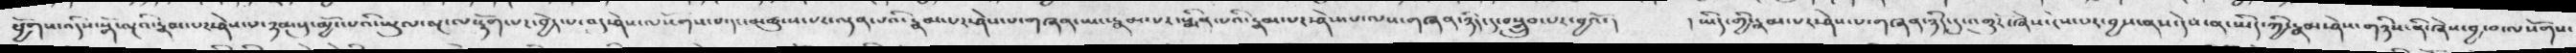ཕྱོགས་འདིས་སྒོ་ལྔའི་རྣམ་པར་ཤེས་པ་ཉམསུ་མྱོང་པའི་ཡུལ་ལྔ་ལ་ལྡོག་པར་བྱེད་པ་བར་ཤེས་ལསོགས་པ་དང་མཚུངས་པར་ལྡན་པའི་རྣམ་པར་ཤེས་པ་གཞན་ཡང་རྣམ་པར་སྨིན་པའི་རྣམ་པར་ཤེས་པ་ལས་གཞན་ཉིད་དུ་བསྒྲུབ་པར་བྱའོ་།    །ཡིད་གྱི་རྣམ་པར་ཤེས་པ་གཞན་ཉིད་དུ་འགྱུརོ་ཞེས་ངེས་པར་བྱས་ནས་དེས་ན་ཡིད་ཀྱི་རྣམ་ཤེས་གཉིས་ནི་ཞེས་བྱ་བ་ལསོགས་
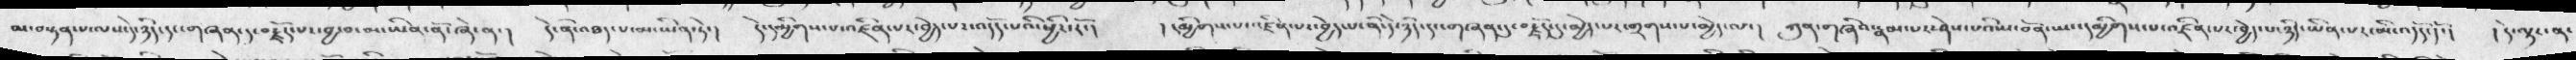མ་བསྟན་པ་ལས་དེ་ཉིད་དང་གཞན་དུ་བརྗོད་པར་བྱ་བ་མ་ཡིན་ནོ་ཞེ་ན་།  དེ་ནི་འཐད་པ་མ་ཡིན་ཏེ་། དེ་དམྱིགས་པ་འཛིན་པར་འདོད་པའི་ཕྱིར་རོ་།  །དམྱིགས་པ་འཛིན་པར་བྱེད་པ་ནི་དེ་ཉིད་དང་གཞན་དུ་བརྗོད་དུ་མྱེད་པར་གྲགས་པ་མྱེད་ལ་།  ཀུན་གཞིའ་རྣམ་པར་ཤེས་པའི་ས་བོན་ཡང་དམྱིགས་པ་འཛིན་པར་བྱེད་པ་ཉིད་ཡིན་པར་མི་འདོད་དོ་།   །དེ་ལྟར་ན་
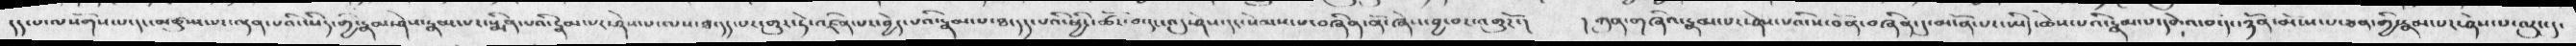དད་པ་ལསོགས་པ་དང་མཚུངས་པར་ལྡན་པའི་ཡིད་གྱི་རྣམ་ཤེས་རྣམ་པར་སྨིན་པའི་རྣམ་པར་ཤེས་པ་ལས་ཐ་དད་པར་གྱུར་ཏེ་འཛིན་པར་བྱེད་པའི་རྣམ་པ་ཐ་དད་པའི་ཕྱིར་འཚོ་བ་དང་འདུ་ཤེས་དང་སེམས་པ་བཞིན་ནོ་ཞེས་བྱ་བར་འགྱུརོ་།   །ཀུན་གཞིའ་རྣམ་པར་ཤེས་པའི་ས་བོན་བཞིན་དུ་མངོན་པ་ཡིད་ཆེས་པའི་རྣམ་པ་དགེའ་བ་དང་ཉོན་མོངས་པ་ཅན་གྱི་རྣམ་པར་ཤེས་པ་ལུང་དུ་
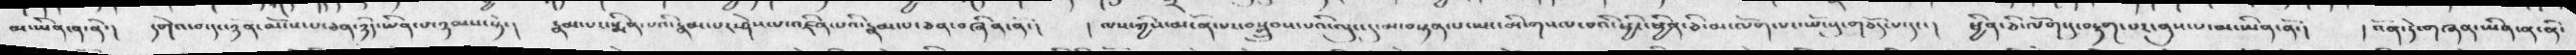མ་ཡིན་ན་ནི་།  དགེའ་བ་དང་ཉོན་མོངས་པ་ཅན་ཉིད་ཡིན་པ་ཉམས་སྟེ་།  རྣམ་པར་སྨིན་པའི་རྣམ་པར་ཤེས་པ་འཛིན་པའི་རྣམ་པ་ཅན་བཞིན་ནོ་།  ལས་ཀྱིས་མངོན་པར་བསྒྲུབས་པའི་ལུང་དུ་མ་བསྟན་པ་ཡང་མི་གསལ་བའི་ཕྱིར་ཕྱིན་ཅི་མ་ལོག་པར་ཡོངསུ་གཅོད་པ་དང་།  ཕྱིན་ཅི་ལོག་དུ་བསྟན་པར་གུས་པ་མ་ཡིན་ནོ་།   །འོན་ཏེ་གཞན་ཡིན་ན་ནི་
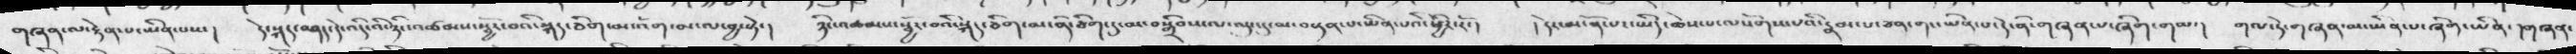གཞན་ལ་རྟེན་པ་ཡིན་པས་།   དེ་སྐད་བཤད་དེ་འདི་འི་ཉིང་འཚམས་སྦྱོར་བའི་སྐད་ཅིག་མ་འོག་མ་ལ་བྱ་སྟེ་། ཉིང་འཚམས་སྦྱོར་བའི་སྐད་ཅིག་མ་ནི་ཅིག་དུ་མ་བསྒྲིབས་ལ་ལུང་དུ་མ་བསྟན་པ་ཡིན་པའི་ཕྱིར་རོ་།  །དེར་མངོན་པར་ཡིད་ཆེས་པ་ལསོགས་པའི་རྣམ་པ་ཅན་གང་ཡིན་པ་དེ་ནི་གཞན་པ་ཞིག་གམ་།  གལ་ཏེ་གཞན་མ་ཡིན་པ་ཞིག་ཡིན་།གཞན་
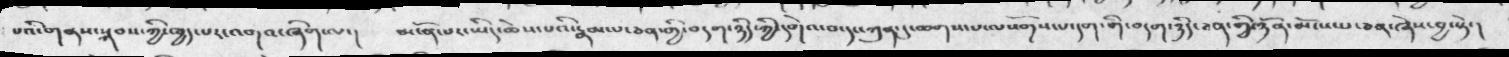པའི་གནས་སྐབས་ཀྱི་ཁྱད་པར་འགའ་ཞིག་ལ་།  མངོན་པར་ཡིད་ཆེས་པའི་རྣམ་པ་ཅན་གྱི་བདག་ཉིད་ཀྱི་དགེའ་བ་དང་ཀུན་དུ་ཆགས་པ་ལསོགས་པ་དག་གི་བདག་ཉིད་ཅན་གྱི་ཉོན་མོངས་པ་ཅན་ཞེས་བྱ་སྟེ་།
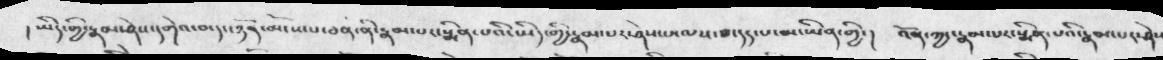།ཡིད་གྱི་རྣམ་ཤེས་དགེའ་བ་དང་ཉོན་མོངས་པ་ཅན་ནི་རྣམ་སྨིན་པའི་ཡིད་གྱི་རྣམ་པར་ཤེས་པ་ལས་ཐ་དད་པ་མ་ཡིན་གྱི་།. འོན་ཀྱང་རྣམ་པར་སྨིན་པའི་རྣམ་པར་ཤེས
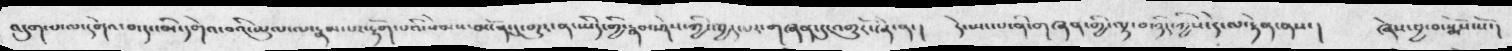འདུག་པ་ལ་དགེའ་བ་དང་མི་དགེའ་བའི་ཡུལ་ལ་རྣམ་པར་རྟོག་པའི་སེམས་མངོན་དུ་གྱུར་ན་ཡིད་གྱི་རྣམ་ཤེས་ཀྱི་ཁྱད་པར་གཞན་དུ་འགྱུརོ་ཞེ་ན་།  དེ་སྤང་པ་ནི་གཞན་གྱི་ལྟ་བ་ཉིད་ཀྱིས་དེ་ལ་རྟེན་ནས་།    ཞེས་བྱ་བ་སྨོས་སོ་།
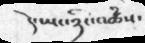དེ་ཡང་ཉིང་འཚཾས་
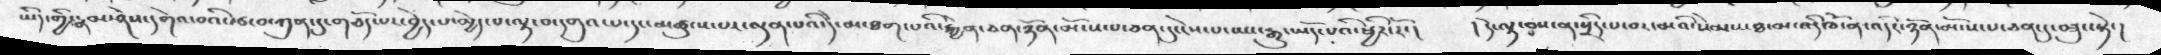ཡིད་གྱི་རྣམ་ཤེས་དགེའ་བའི་རྩ་བ་ཀུན་དུ་གཅོད་པར་བྱེད་པ་མྱེད་པ་ལྟ་བ་དགུའ་པ་དང་མཚུངས་པར་ལྡན་པའི་དེ་མ་ཐག་པའི་རྐྱེན་ཅན་ཉོན་མོངས་པ་ཅན་དུ་ངེས་པ་ཡང་རྒྱུ་ཡོད་པའི་ཕྱིར་རོ་།   །དེ་ལྟ་བས་ན་སྲིད་པ་བར་མའི་སེམས་ཐ་མ་འདི་ཁོ་ན་འདིར་ཉོན་མོངས་པ་ཅན་དུ་བཟུང་སྟེ་།
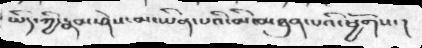ཡིད་ཀྱི་རྣམ་ཤེས་མ་ཡིན་པའི་མི་མཐུན་པའི་ཕྱོགས་།
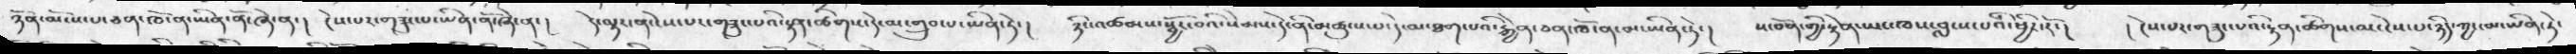ཉོན་མོངས་པ་ཅན་ཁོ་ན་ཡིན་ནོ་ཞེ་ན་།  ངེས་པར་གཟུང་པ་ཡིན་ནོ་ཞེ་ན་།  དེ་ལྟར་ན་ངེས་པར་གཟུང་པའི་སྟན་ཚིགས་དེ་མ་གྲུབ་པ་ཡིན་ཏེ་།  ཉིང་འཚམས་སྦྱོར་བའི་སེམས་དེ་ནི་མཚུངས་པ་དེ་མ་ཐག་པའི་རྐྱེན་ཅན་ཁོ་ན་མ་ཡིན་ཏེ་།  ས་བོན་གྱི་རྟེན་ཡང་ཁས་བླངས་པའི་ཕྱིར་རོ་།  ། ངེས་པར་གཟུང་པའི་རྟན་ཚོགས་མ་ངེས་པ་ཉིད་ཀྱང་མ་ཡིན་ཏེ་
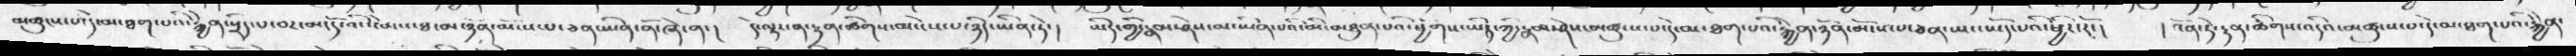མཚུངས་པ་དེ་མ་ཐག་པའི་རྐྱེན་སྲིད་པ་བར་མ་དེ་་འི་སེམས་ཐ་བ་ཉོན་མོངས་པ་ཅན་ཡིན་ནོ་ཞེ་ན་།   དེ་ལྟར་ན་རྟན་ཚིགས་མ་ངེས་པ་ཉིད་ཡིན་ཏེ་།  ཡིད་གྱི་རྣམ་ཤེས་མ་ཡིན་པའི་མི་མཐུན་པའི་ཕྱོགས་ཡིད་ཀྱི་རྣམ་ཤེས་མཚུངས་པ་དེ་མ་ཐག་པའི་རྐྱེན་ཉོན་མོངས་པ་ཅན་ཡང་ཡོད་པའི་ཕྱིར་རོ་།  ། འོན་ཏེ་རྟན་ཚིགས་འདའི་མཚུངས་པ་དེ་མ་ཐག་པའི་རྐྱེན་
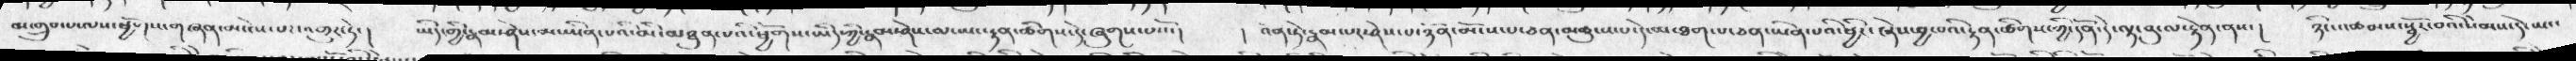མ་གྲུབ་པ་ལས་ཕྱོགས་གཞན་མ་ངེས་པར་འགྱུར་ཏེ་།  ཡིད་གྱི་རྣམ་ཤེས་མ་ཡིན་པའི་མི་མཐུན་པའི་ཕྱོགས་ཡིད་ཀྱི་རྣམ་ཤེས་ལ་ཡང་རྟན་ཚིགས་རེ་ཞུགས་པ་འོ།   ། འོན་ཏེ་རྣམ་པར་ཤེས་པ་ཉོན་མོངས་པ་ཅན་མཚུངས་པ་དེ་མ་ཐག་པ་ཅན་ཡིན་པའི་ཕྱིར་ཞེས་བྱ་པའི་རྟན་ཚིགས་ཀྱི་དོན་དེ་ལྟ་བུ་ལ་རྟེན་ནས་།   ཉིང་འཚམས་སྦྱོར་བའི་སེམས་དེ་ཡང་
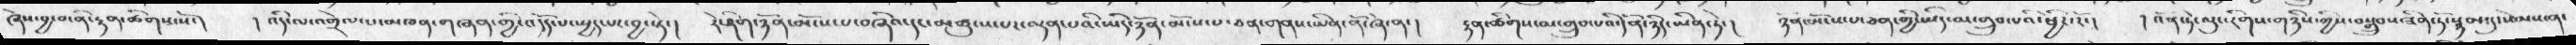ཞེས་བྱ་བ་ནི་རྟན་ཚིགས་སོ་།  ། འདི་ལ་འགྲེལ་པ་མཁན་གཞན་གྱི་འདོད་པ་སྤྱད་པར་བྱ་སྟེ་། རེ་ཤིག་ཉོན་མོངས་པ་བཞིའ་དང་མཚུངས་པར་ལྡན་པའི་ཡིད་ཉོན་མོངས་པ་ཅན་གནས་ཡིན་ནོ་ཞེ་ན་།  རྟན་ཚིགས་མ་གྲུབ་པའི་དོན་ཉིད་ཡིན་ཏེ་།  ཉོན་མོངས་པ་ཅན་གྱི་ཡིད་མ་གྲུབ་པའི་ཕྱིར་རོ་།  ། འོན་ཏེ་ལུང་རིགས་གཉིས་ཀྱིས་བསྒྲུབས་ཟིན་ཏོ་སྙམ་དུ་ཆེམས་ན་
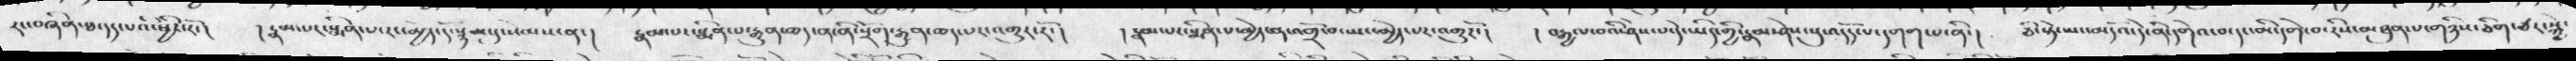རང་བཞིན་ཐ་དད་པའི་ཕྱིར་རོ་།  །རྣམ་པར་སྨིན་པ་རང་མྱེད་དོ་སྙམ་དུ་སེམས་ན་།  རྣམ་པར་སྨིན་པ་རྒྱུན་ཆད་ན་ནི་སྲོག་རྒྱུན་ཆད་པར་གྱུར་རོ་།  །རྣམ་པར་སྨིན་པར་མྱེད་ན་འགྲོ་བ་ཡང་མྱེད་པར་འགྱུརོ་།  །བརྒྱལ་བའི་ཤེས་པ་དེ་ཡིད་གྱི་རྣམ་ཤེས་སུ་འདོད་པ་དགག་པ་ནི་།  ཅི་སྟེ་ཡང་མདོའ་དེ་ནི་དགེའ་བ་དང་མི་དགེ་བ་རིས་མཐུན་པ་གཉིས་ཅིག་ཅར་སྐྱེ་
